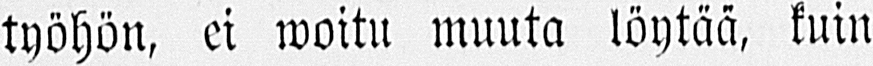työhön, ei woitu muuta löytää, kuin
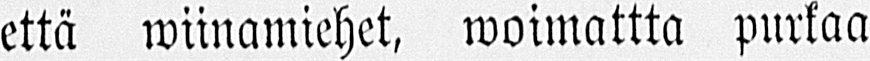että wiinamiehet, woimattta purkaa
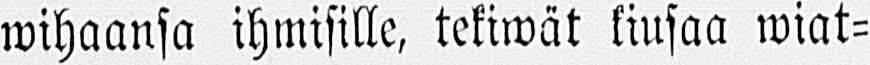wihaansa ihmisille, tekiwät kiusaa wiat-
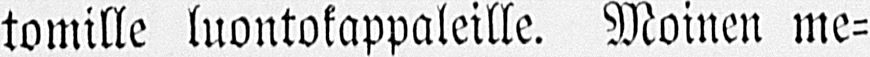tomille luontokappaleille. Moinen me-
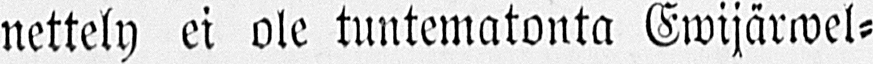nettely ei ole tuntematonta Ewijärwel-
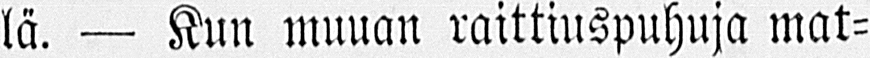lä. — Kun muuan raittiuspuhuja mat-
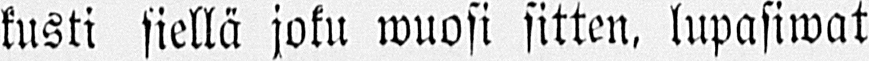kusti siellä joku wuosi sitten, lupasiwat
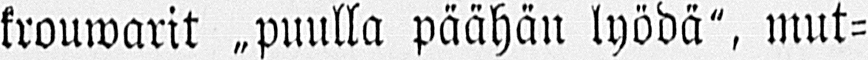krouwarit „puulla päähän lyödä", mut-
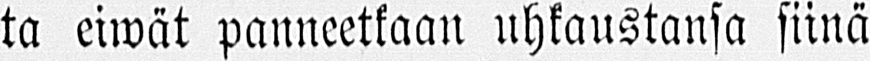ta eiwät panneetkaan uhkaustansa siinä
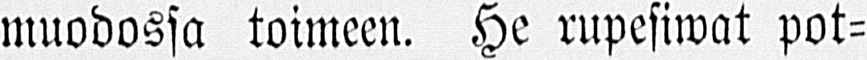muodossa toimeen. He rupesiwat pot-
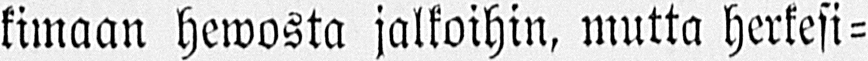kimaan hewosta jalkoihin, mutta herkesi -
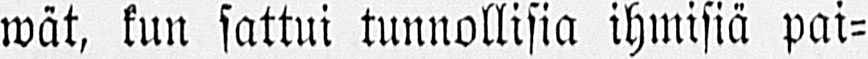wät, kun sattui tunnollisia ihmisiä pai-
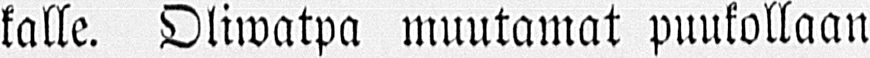kalle. Oliwatpa muutamat puukollaan
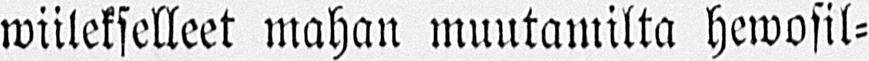wiilekselleet mahan muutamilta hewosil-
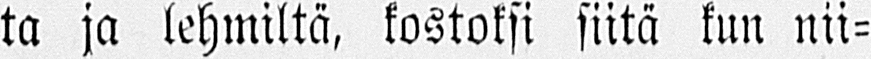ta ja lehmiltä, kostoksi siitä kun nii-
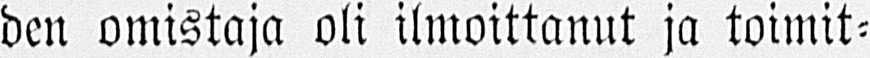den omistaja oli ilmoittanut ja toimit-
